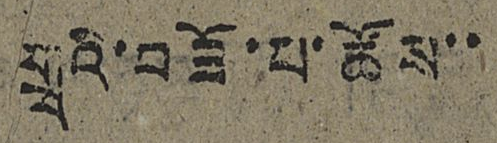གྲྭའི་བཟོ་པ་ཚོས་་
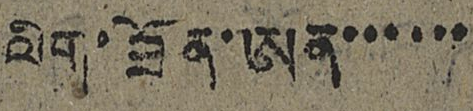ལིག་ཟོན་ཨན་་་་་་
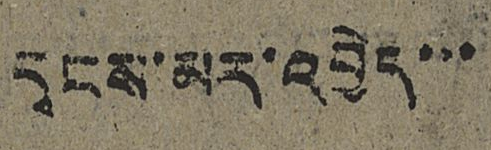དྭངས་མར་འབྱེད་་་
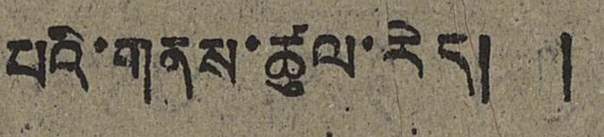པའི་གནས་ཚུལ་རེད། །
